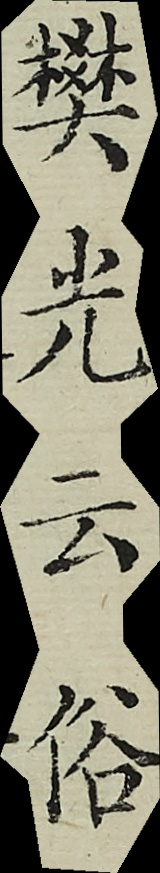樊光云俗
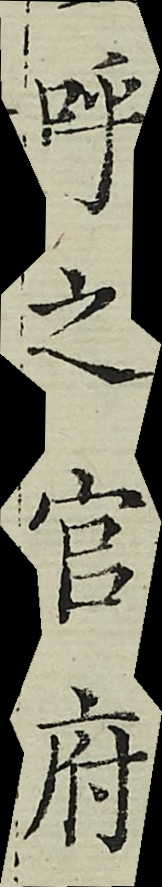呼之官府
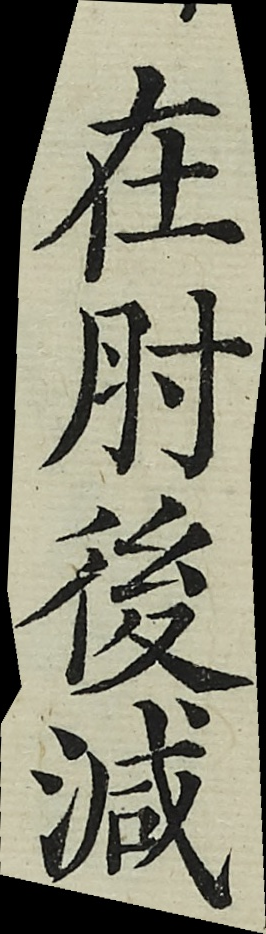在肘後減
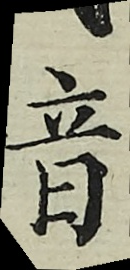音
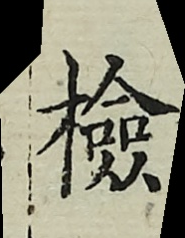檢
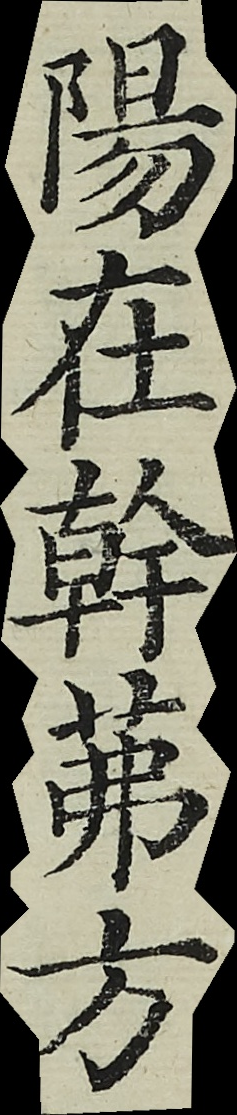陽在幹苐方
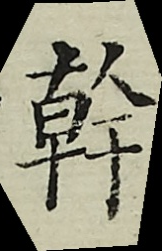幹
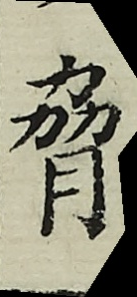脅
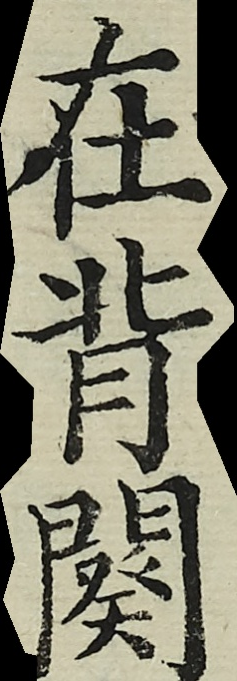在背闋
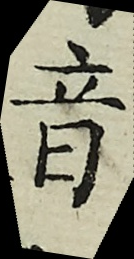音
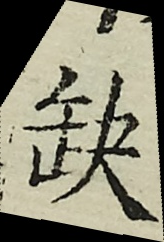缺
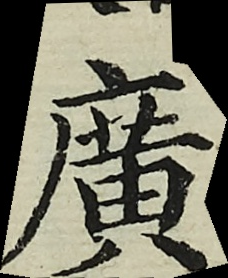廣
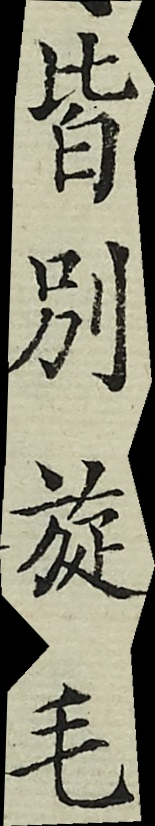皆別旋毛
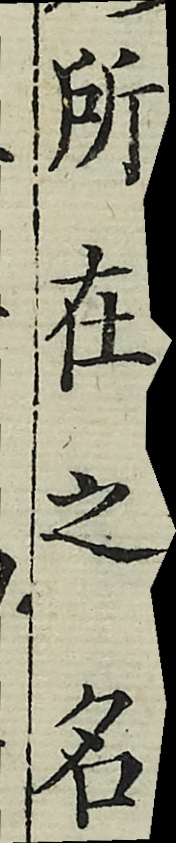所在之名
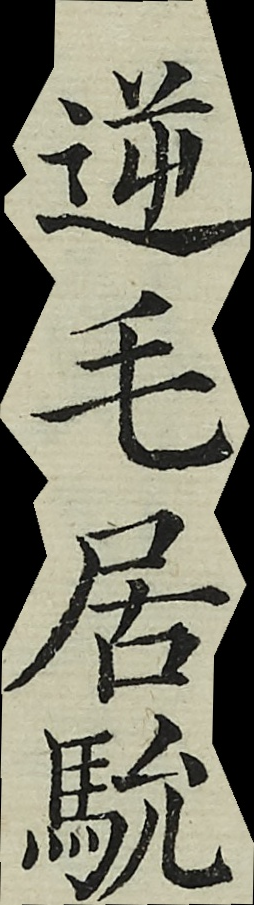逆毛居馻
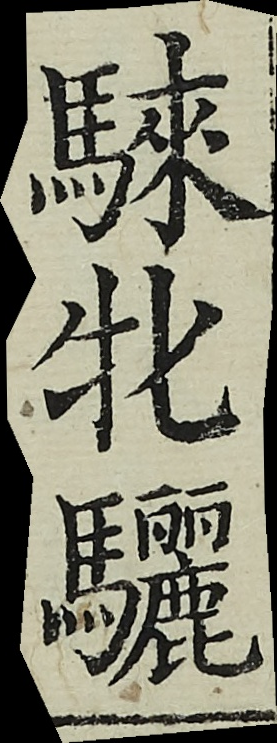騋牝驪
